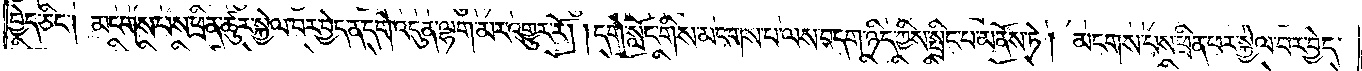བྱེད་ཅིང༌། མངགས་པས་ཕྲིན་ཚུར་སྐྱེལ་བར་བྱེད་ན་དགེ་འདུན་ལྷག་མར་འགྱུར་རོ། །དགེ་སློང་གིས་མངགས་པ་ལས་བདག་ཉིད་ཀྱིས་སྤྲིང་པ་མནོས་ཏེ། མངགས་པས་ཕྲིན་ཕར་སྐྱེལ་བར་བྱེད་
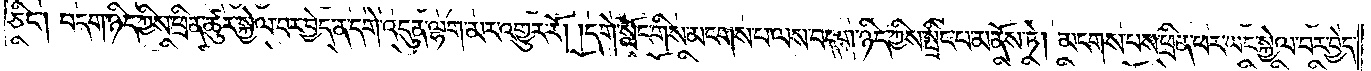ཅིང༌། བདག་ཉིད་ཀྱིས་ཕྲིན་ཚུར་སྐྱེལ་བར་བྱེད་ན་དགེ་འདུན་ལྷག་མར་འགྱུར་རོ། །དགེ་སློང་གིས་མངགས་པ་ལས་བདག་ཉིད་ཀྱིས་སྤྲིང་པ་མནོས་ཏེ། མངགས་པས་ཕྲིན་ཕར་ཡང་སྐྱེལ་བར་བྱེད་
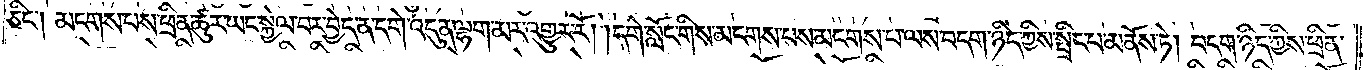ཅིང༌། མངགས་པས་ཕྲིན་ཚུར་ཡང་སྐྱེལ་བར་བྱེད་ན་དགེ་འདུན་ལྷག་མར་འགྱུར་རོ། །དགེ་སློང་གིས་མངགས་པས་མངགས་པ་ལས་བདག་ཉིད་ཀྱིས་སྤྲིང་པ་མནོས་ཏེ། བདག་ཉིད་ཀྱིས་ཕྲིན་
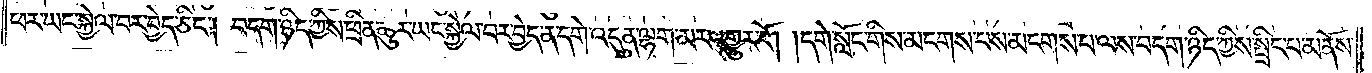ཕར་ཡང་སྐྱེལ་བར་བྱེད་ཅིང༌། བདག་ཉིད་ཀྱིས་ཕྲིན་ཚུར་ཡང་སྐྱེལ་བར་བྱེད་ན་དགེ་འདུན་ལྷག་མར་འགྱུར་རོ། །དགེ་སློང་གིས་མངགས་པས་མངགས་པ་ལས་བདག་ཉིད་ཀྱིས་སྤྲིང་པ་མནོས་
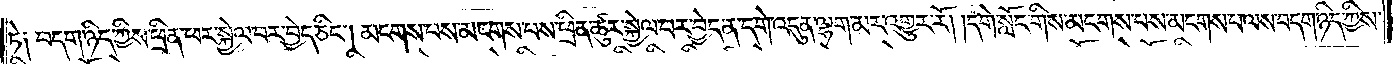ཏེ༑ བདག་ཉིད་ཀྱིས་ཕྲིན་ཕར་སྐྱེལ་བར་བྱེད་ཅིང༌། མངགས་པས་མངགས་པས་ཕྲིན་ཚུར་སྐྱེལ་བར་བྱེད་ན་དགེ་འདུན་ལྷག་མར་འགྱུར་རོ། །དགེ་སློང་གིས་མངགས་པས་མངགས་པ་ལས་བདག་ཉིད་ཀྱིས་
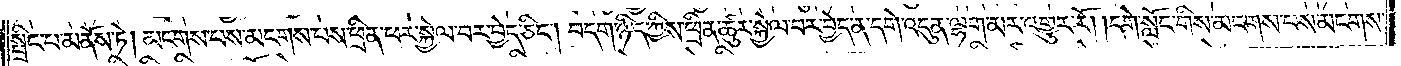སྤྲིང་པ་མནོས་ཏེ། མངགས་པས་མངགས་པས་ཕྲིན་ཕར་སྐྱེལ་བར་བྱེད་ཅིང༌། བདག་ཉིད་ཀྱིས་ཕྲིན་ཚུར་སྐྱེལ་བར་བྱེད་ན་དགེ་འདུན་ལྷག་མར་འགྱུར་རོ། །དགེ་སློང་གིས་མངགས་པས་མངགས་
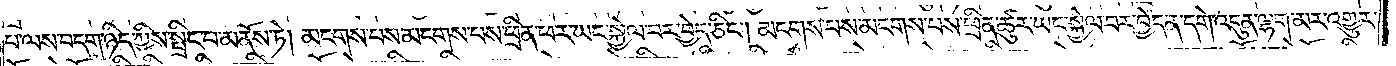པ་ལས་བདག་ཉིད་ཀྱིས་སྤྲིང་པ་མནོས་ཏེ། མངགས་པས་མངགས་པས་ཕྲིན་ཕར་ཡང་སྐྱེལ་བར་བྱེད་ཅིང༌། མངགས་པས་མངགས་པས་ཕྲིན་ཚུར་ཡང་སྐྱེལ་བར་བྱེད་ན་དགེ་འདུན་ལྷག་མར་འགྱུར་
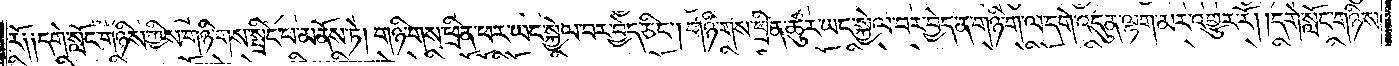རོ༑ ༑དགེ་སློང་གཉིས་ཀྱིས་གཉི་གས་སྤྲིང་པ་མནོས་ཏེ། གཉི་གས་ཕྲིན་ཕར་ཡང་སྐྱེལ་བར་བྱེད་ཅིང༌། གཉི་གས་ཕྲིན་ཚུར་ཡང་སྐྱེལ་བར་བྱེད་ན་གཉི་ག་ལ་དགེ་འདུན་ལྷག་མར་འགྱུར་རོ། །དགེ་སློང་གཉིས་
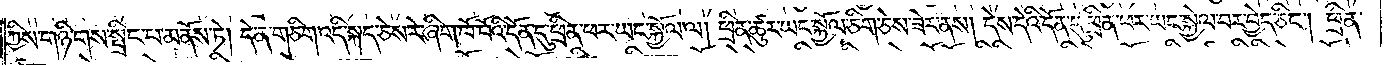ཀྱིས་གཉི་གས་སྤྲིང་པ་མནོས་ཏེ། དེ་ན་གཅིག་འདི་སྐད་ཅེས་རེ་ཞིག་ཁོ་བོའི་དོན་དུ་ཕྲིན་ཕར་ཡང་སྐྱོལ་ལ། ཕྲིན་ཚུར་ཡང་སྐྱོལ་ཅིག་ཅེས་ཟེར་ནས། དེས་དེའི་དོན་དུ་ཕྲིན་ཕར་ཡང་སྐྱེལ་བར་བྱེད་ཅིང༌། ཕྲིན་
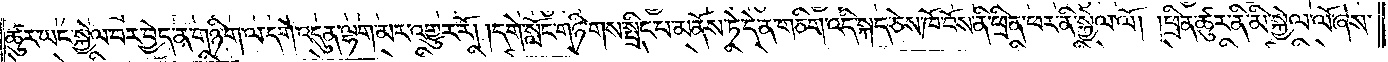ཚུར་ཡང་སྐྱེལ་བར་བྱེད་ན་གཉི་ག་ལ་དགེ་འདུན་ལྷག་མར་འགྱུར་རོ། །དགེ་སློང་གཉི་གས་སྤྲིང་པ་མནོས་ཏེ་དེ་ན་གཅིག་འདི་སྐད་ཅེས་ཁོ་བོས་ནི་ཕྲིན་ཕར་ནི་སྐྱེལ་ལོ། །ཕྲིན་ཚུར་ནི་མི་སྐྱེལ་ལོ་ཞེས་
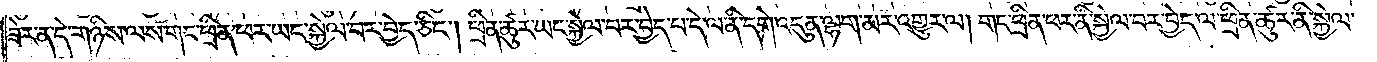ཟེར་ན་དེ་གཉིས་ལས་གང་ཕྲིན་ཕར་ཡང་སྐྱེལ་བར་བྱེད་ཅིང༌། ཕྲིན་ཚུར་ཡང་སྐྱེལ་བར་བྱེད་པ་དེ་ལ་ནི་དགེ་འདུན་ལྷག་མར་འགྱུར་ལ། གང་ཕྲིན་ཕར་ནི་སྐྱེལ་བར་བྱེད་ལ་ཕྲིན་ཚུར་ནི་སྐྱེལ་
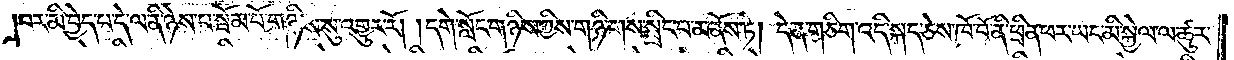།བར་མི་བྱེད་པ་དེ་ལ་ནི་ཉེས་པ་སྦོམ་པོ་གཉིས་སུ་འགྱུར་རོ། །དགེ་སློང་གཉིས་ཀྱིས་གཉི་གས་སྤྲིང་པ་མནོས་ཏེ། དེ་ན་གཅིག་འདི་སྐད་ཅེས་ཁོ་བོ་ནི་ཕྲིན་ཕར་ཡང་མི་སྐྱེལ་ལ་ཚུར་
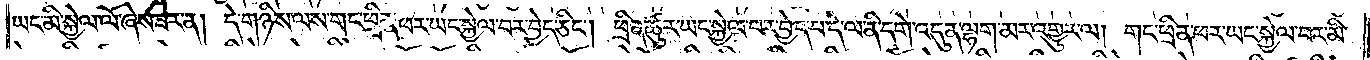ཡང་མི་སྐྱེལ་ལོ་ཞེས་ཟེར་ན། དེ་གཉིས་ལས་གང་ཕྲིན་ཕར་ཡང་སྐྱེལ་བར་བྱེད་ཅིང༌། ཕྲིན་ཚུར་ཡང་སྐྱེལ་བར་བྱེད་པ་དེ་ལ་ནི་དགེ་འདུན་ལྷག་མར་འགྱུར་ལ། གང་ཕྲིན་ཕར་ཡང་སྐྱེལ་བར་མི་
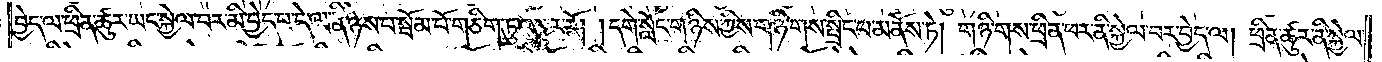བྱེད་ལ་ཕྲིན་ཚུར་ཡང་སྐྱེལ་བར་མི་བྱེད་པ་དེ་ལ་ནི་ཉེས་པ་སྦོམ་པོ་གཅིག་ཏུ་འགྱུར་རོ། །དགེ་སློང་གཉིས་ཀྱིས་གཉི་གས་སྤྲིང་པ་མནོས་ཏེ། གཉི་གས་ཕྲིན་ཕར་ནི་སྐྱེལ་བར་བྱེད་ལ། ཕྲིན་ཚུར་ནི་སྐྱེལ་
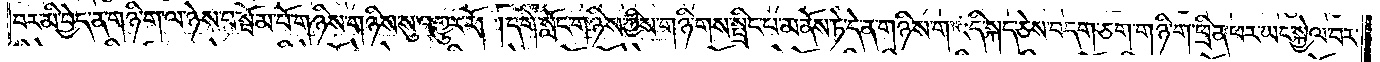བར་མི་བྱེད་ན་གཉི་ག་ལ་ཉེས་པ་སྦོམ་པོ་གཉིས་གཉིས་སུ་འགྱུར་རོ། །དགེ་སློང་གཉིས་ཀྱིས་གཉི་གས་སྤྲིང་པ་མནོས་ཏེ་དེ་ན་གཉིས་ག་འདི་སྐད་ཅེས་བདག་ཅག་གཉི་ག་ཕྲིན་ཕར་ཡང་སྐྱེལ་བར་
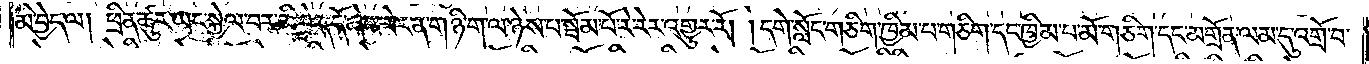མི་བྱེད་ལ། ཕྲིན་ཚུར་ཡང་སྐྱེལ་བར་མི་བྱེད་དོ་ཞེས་ཟེར་ན་གཉི་ག་ལ་ཉེས་པ་སྦོམ་པོ་རེ་རེར་འགྱུར་རོ། །དགེ་སློང་གཅིག་ཁྱིམ་པ་གཅིག་དང་ཁྱིམ་པ་མོ་གཅིག་དང་མགྲོན་ལམ་དུ་འགྲོ་བ་
